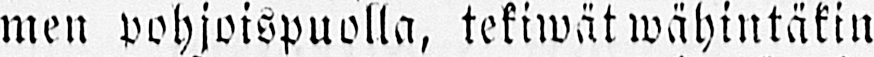men pohjoispuolla, tekiwät wähintäkin
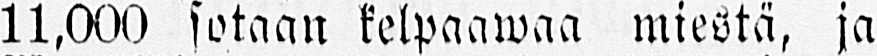11,000 sotaan kelpaawaa miestä, ja
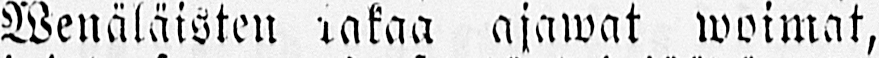Wenäläisten rataa ajawat woimat,
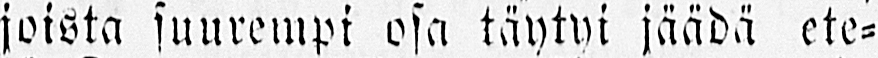joista suurempi osa täytyi jäädä ete-
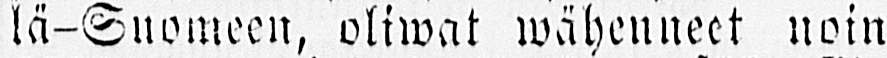lä-Suomeen, oliwat wähenneet noin
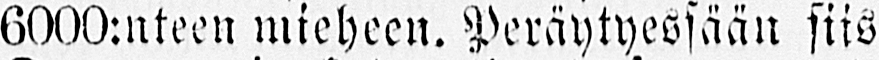6000:nteen mieheen. Peräytyessään siis
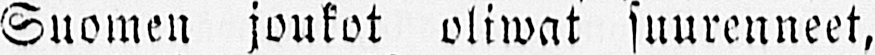Suomen joukot oliwat suurenneet,
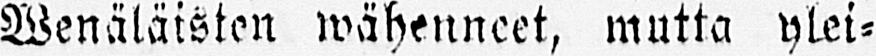Wenäläisten wäheneet, mutta ylei-
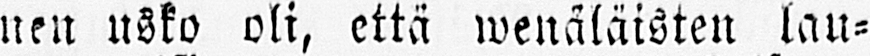nen usko oli, että wenäläisten lau-
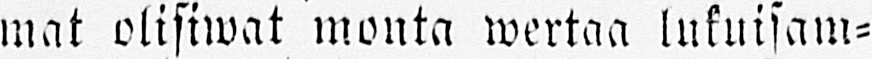mat olisiwat monta wertaa lukuisam-
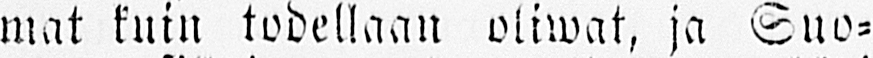mat kuin todellaan oliwat, ja Suo-
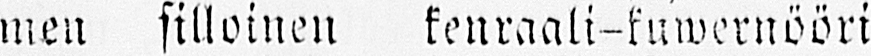mea silloinen kenraali-kuwernööri
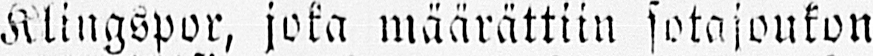Klingspor, joka määrättiin sotajoukon
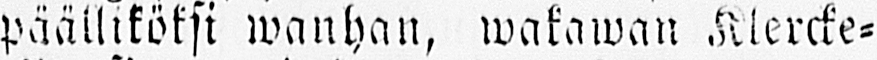päälliköksi wanhan, wakawan Klereke-
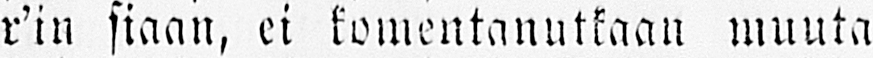r'in siaan, ei komentanutkaan muuta
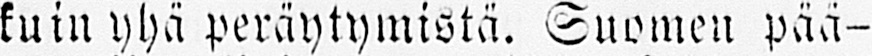kuin yhä peräytymistä. Suomen pää-
